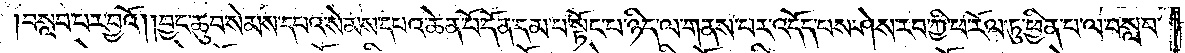བསླབ་པར་བྱའོ། །བྱང་ཆུབ་སེམས་དཔའ་སེམས་དཔའ་ཆེན་པོ་དོན་དམ་པ་སྟོང་པ་ཉིད་ལ་གནས་པར་འདོད་པས་ཤེས་རབ་ཀྱི་ཕ་རོལ་ཏུ་ཕྱིན་པ་ལ་བསླབ་
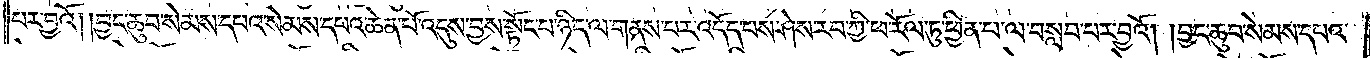པར་བྱའོ། །བྱང་ཆུབ་སེམས་དཔའ་སེམས་དཔའ་ཆེན་པོ་འདུས་བྱས་སྟོང་པ་ཉིད་ལ་གནས་པར་འདོད་པས་ཤེས་རབ་ཀྱི་ཕ་རོལ་ཏུ་ཕྱིན་པ་ལ་བསླབ་པར་བྱའོ། །བྱང་ཆུབ་སེམས་དཔའ་
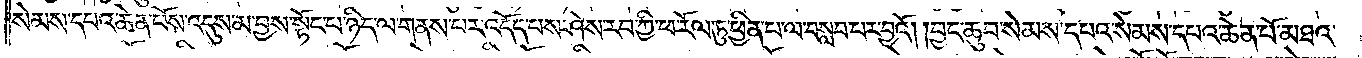སེམས་དཔའ་ཆེན་པོས་འདུས་མ་བྱས་སྟོང་པ་ཉིད་ལ་གནས་པར་འདོད་པས་ཤེས་རབ་ཀྱི་ཕ་རོལ་ཏུ་ཕྱིན་པ་ལ་བསླབ་པར་བྱའོ། །བྱང་ཆུབ་སེམས་དཔའ་སེམས་དཔའ་ཆེན་པོ་མཐའ་
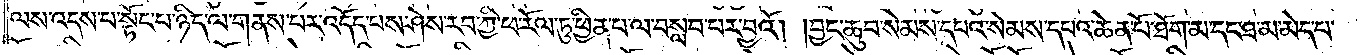ལས་འདས་པ་སྟོང་པ་ཉིད་ལ་གནས་པར་འདོད་པས་ཤེས་རབ་ཀྱི་ཕ་རོལ་ཏུ་ཕྱིན་པ་ལ་བསླབ་པར་བྱའོ། །བྱང་ཆུབ་སེམས་དཔའ་སེམས་དཔའ་ཆེན་པོ་ཐོག་མ་དང་ཐ་མ་མེད་པ་
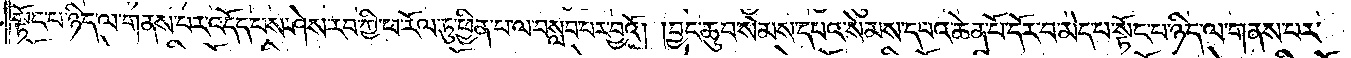སྟོང་པ་ཉིད་ལ་གནས་པར་འདོད་པས་ཤེས་རབ་ཀྱི་ཕ་རོལ་ཏུ་ཕྱིན་པ་ལ་བསླབ་པར་བྱའོ། །བྱང་ཆུབ་སེམས་དཔའ་སེམས་དཔའ་ཆེན་པོ་དོར་བ་མེད་པ་སྟོང་པ་ཉིད་ལ་གནས་པར་
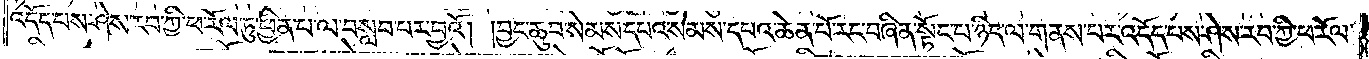འདོད་པས་ཤེས་རབ་ཀྱི་ཕ་རོལ་ཏུ་ཕྱིན་པ་ལ་བསླབ་པར་བྱའོ། །བྱང་ཆུབ་སེམས་དཔའ་སེམས་དཔའ་ཆེན་པོ་རང་བཞིན་སྟོང་པ་ཉིད་ལ་གནས་པར་འདོད་པས་ཤེས་རབ་ཀྱི་ཕ་རོལ་
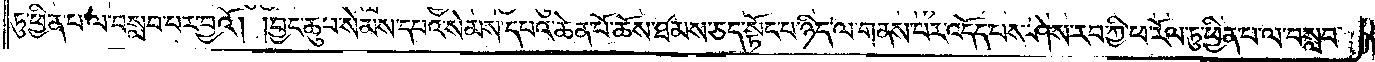ཏུ་ཕྱིན་པ་ལ་བསླབ་པར་བྱའོ། །བྱང་ཆུབ་སེམས་དཔའ་སེམས་དཔའ་ཆེན་པོ་ཆོས་ཐམས་ཅད་སྟོང་པ་ཉིད་ལ་གནས་པར་འདོད་པས་ཤེས་རབ་ཀྱི་ཕ་རོལ་ཏུ་ཕྱིན་པ་ལ་བསླབ་
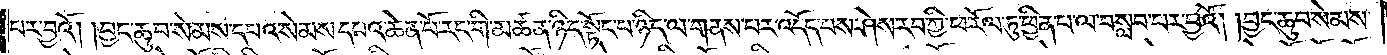པར་བྱའོ། །བྱང་ཆུབ་སེམས་དཔའ་སེམས་དཔའ་ཆེན་པོ་རང་གི་མཚན་ཉིད་སྟོང་པ་ཉིད་ལ་གནས་པར་འདོད་པས་ཤེས་རབ་ཀྱི་ཕ་རོལ་ཏུ་ཕྱིན་པ་ལ་བསླབ་པར་བྱའོ། །བྱང་ཆུབ་སེམས་
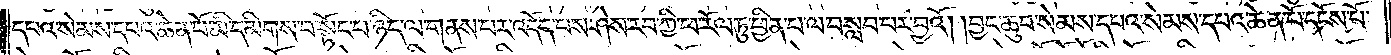དཔའ་སེམས་དཔའ་ཆེན་པོ་མི་དམིགས་པ་སྟོང་པ་ཉིད་ལ་གནས་པར་འདོད་པས་ཤེས་རབ་ཀྱི་ཕ་རོལ་ཏུ་ཕྱིན་པ་ལ་བསླབ་པར་བྱའོ། །བྱང་ཆུབ་སེམས་དཔའ་སེམས་དཔའ་ཆེན་པོ་དངོས་པོ་
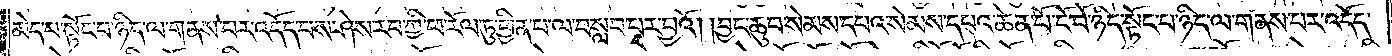མེད་པ་སྟོང་པ་ཉིད་ལ་གནས་པར་འདོད་པས་ཤེས་རབ་ཀྱི་ཕ་རོལ་ཏུ་ཕྱིན་པ་ལ་བསླབ་པར་བྱའོ། །བྱང་ཆུབ་སེམས་དཔའ་སེམས་དཔའ་ཆེན་པོ་ངོ་བོ་ཉིད་སྟོང་པ་ཉིད་ལ་གནས་པར་འདོད་
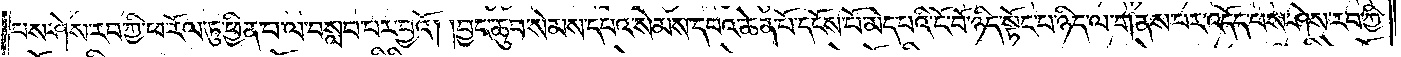པས་ཤེས་རབ་ཀྱི་ཕ་རོལ་ཏུ་ཕྱིན་པ་ལ་བསླབ་པར་བྱའོ། །བྱང་ཆུབ་སེམས་དཔའ་སེམས་དཔའ་ཆེན་པོ་དངོས་པོ་མེད་པའི་ངོ་བོ་ཉིད་སྟོང་པ་ཉིད་ལ་གནས་པར་འདོད་པས་ཤེས་རབ་ཀྱི་
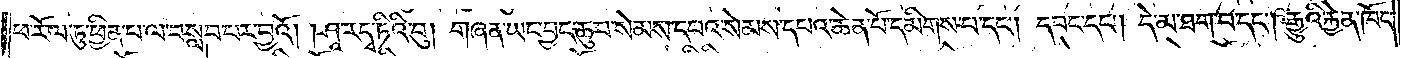ཕ་རོལ་ཏུ་ཕྱིན་པ་ལ་བསླབ་པར་བྱའོ། །ཤཱ་ར་དྭ་ཏིའི་བུ། གཞན་ཡང་བྱང་ཆུབ་སེམས་དཔའ་སེམས་དཔའ་ཆེན་པོ་དམིགས་པ་དང༌། དབང་དང༌། དེ་མ་ཐག་པ་དང༌། རྒྱུའི་རྐྱེན་ཁོང་
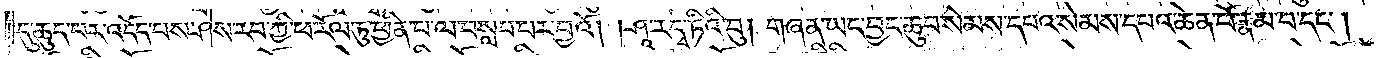དུ་ཆུད་པར་འདོད་པས་ཤེས་རབ་ཀྱི་ཕ་རོལ་ཏུ་ཕྱིན་པ་ལ་བསླབ་པར་བྱའོ། །ཤཱ་ར་དྭ་ཏིའི་བུ། གཞན་ཡང་བྱང་ཆུབ་སེམས་དཔའ་སེམས་དཔའ་ཆེན་པོ་རྣམ་པ་དང༌།
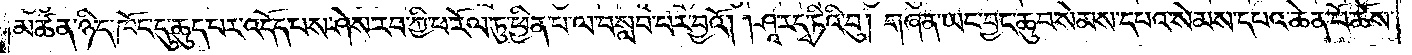མཚན་ཉིད་ཁོང་དུ་ཆུད་པར་འདོད་པས་ཤེས་རབ་ཀྱི་ཕ་རོལ་ཏུ་ཕྱིན་པ་ལ་བསླབ་པར་བྱའོ། །ཤཱ་ར་དྭ་ཏིའི་བུ། གཞན་ཡང་བྱང་ཆུབ་སེམས་དཔའ་སེམས་དཔའ་ཆེན་པོ་ཆོས་
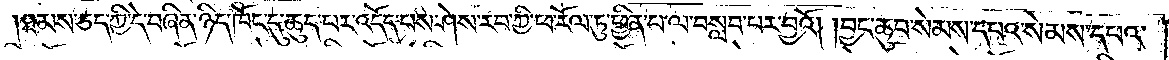ཐམས་ཅད་ཀྱི་དེ་བཞིན་ཉིད་ཁོང་དུ་ཆུད་པར་འདོད་པས་ཤེས་རབ་ཀྱི་ཕ་རོལ་ཏུ་ཕྱིན་པ་ལ་བསླབ་པར་བྱའོ། །བྱང་ཆུབ་སེམས་དཔའ་སེམས་དཔའ་
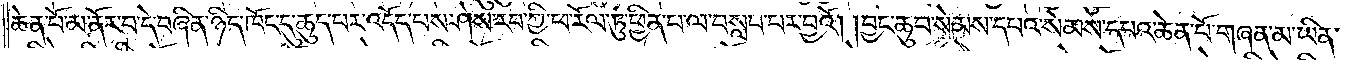ཆེན་པོ་མ་ནོར་བ་དེ་བཞིན་ཉིད་ཁོང་དུ་ཆུད་པར་འདོད་པས་ཤེས་རབ་ཀྱི་ཕ་རོལ་ཏུ་ཕྱིན་པ་ལ་བསླབ་པར་བྱའོ། །བྱང་ཆུབ་སེམས་དཔའ་སེམས་དཔའ་ཆེན་པོ་གཞན་མ་ཡིན་
